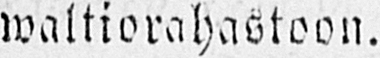waltiorahastoon.
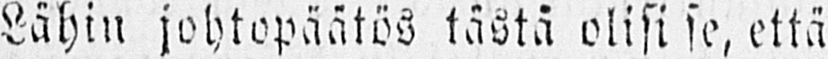Lähin johtopäätös tästä olisi se, että
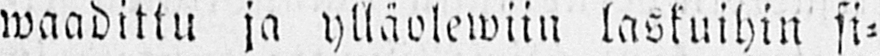waadittu ja ylläolewiin laskuihin si-
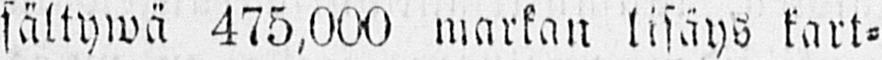sältywä 475,000 markan lisäys kart-
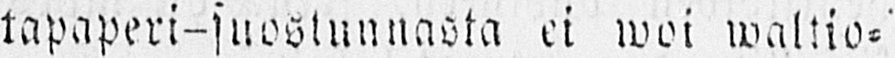tapaperi-suostunnasta ei woi waltio-
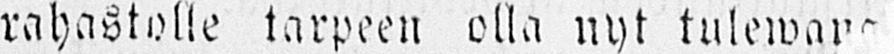rahastolle tarpeen olla nyt tulewana
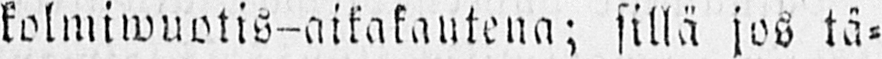kolmiwuotis-aikakautena; sillä jos tä-
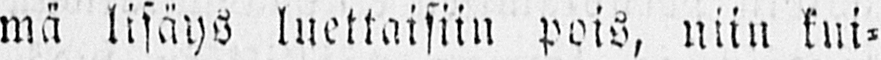mä lisäys luettaisiin pois, niin kui-
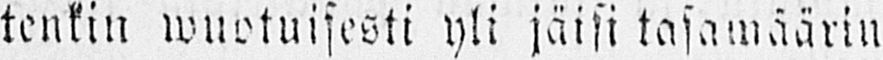tenkin wuotuisesti yli jäisi tasamäärin
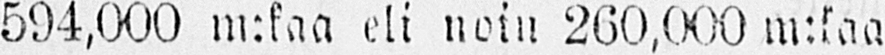594,000 m:kaa eli noin 200,000 m:kaa
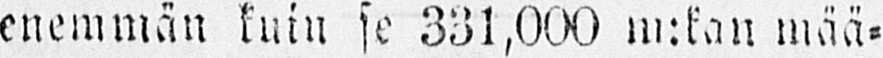enemmän kuin se 331,000 m:kan mää-
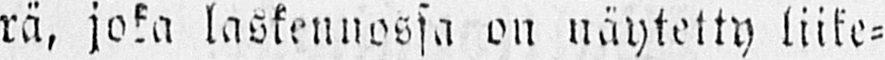rä, joka laskennossa on näytelty liike-
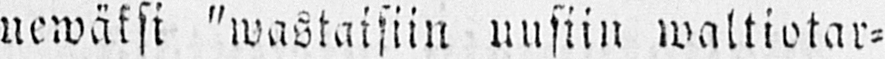newäksi "wastaisiin uusiin waltiotar-
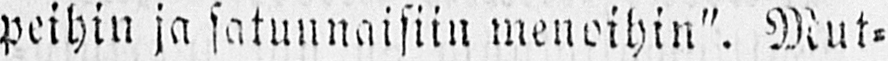peihin ja satunnaisiin menoihin". Mut-
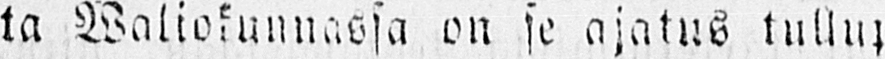ta waliokunnassa on se ajatus tullut
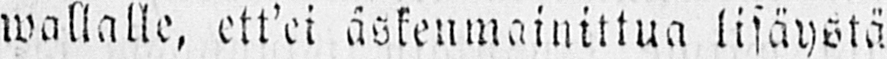wallalle, ett'ei äskenmainittua lisäystä
